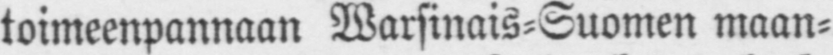toimeenpannaan Warsinais-Suomen maan-
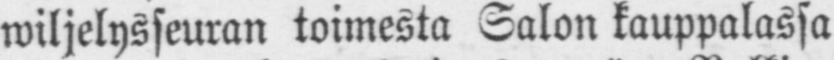wiljelysseuran toimesta Salon kauppalassa
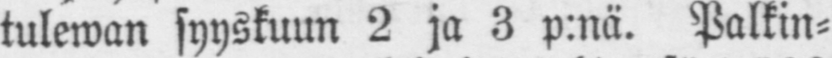tulewan syyskuun 2 ja 3 p:nä. Palkin-
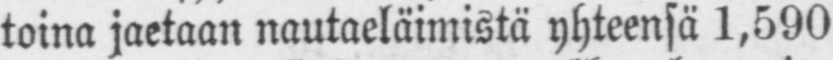toina jaetaan nautaeläimistä yhteensä 1,590
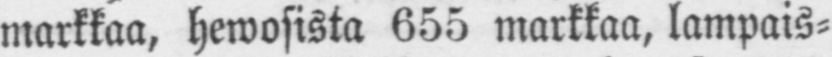markkaa, hewosista 655 markkaa, lampais-
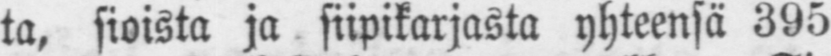ta, sioista ja siipikarjasta yhteensä 395
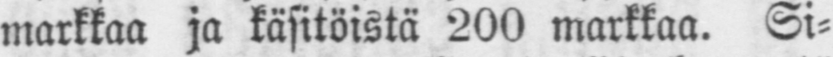markkaa ja käsitöistä 200 markkaa. Si-
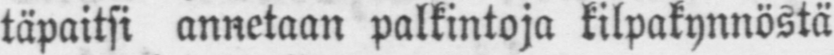täpaitsi annetaan palkintoja kilpakynnöstä
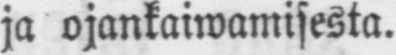ja ojankaiwamisesta.
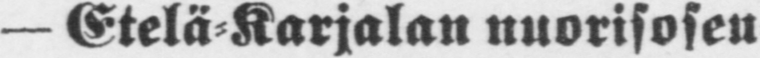— Etelä-Karjalan nuorisoseu-
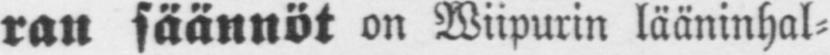ran säännöt on Wiipurin lääninhal-
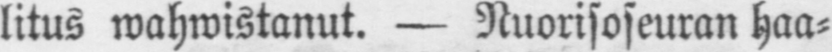litus wahwistanut. — Nuorisoseuran haa-
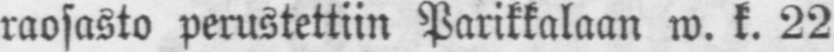raosasto perustettiin Parikkalaan w. k. 22
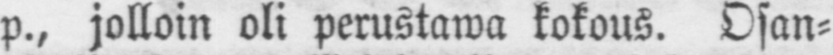p., jolloin oli perustawa kokous. Osan-
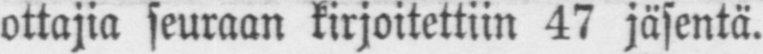ottajia seuraan kirjoitettiin 47 jäsentä.
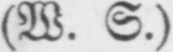(W.S.)
